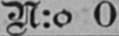N:o 0.
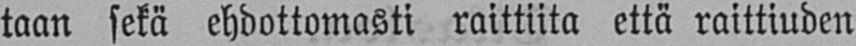taan sekä ehdottomasti raittiita että raittiuden
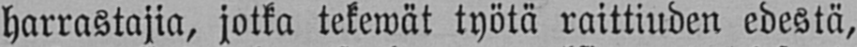harrastajia, jotka tekewät työtä raittiuden edestä,
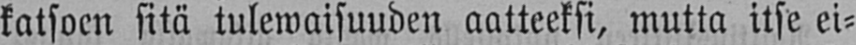katsoen sitä tulewaisuuden aatteeksi, mutta itse ei-
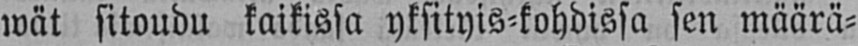wät sitoudu kaikissa yksityis-kohdissa sen määrä-
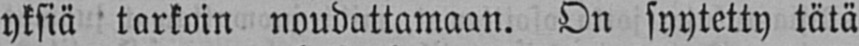yksiä tarkoin noudattamaan. On syytetty tätä
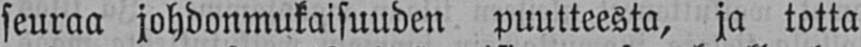seuraa johdonmukaisuuden puutteesta, ja totta
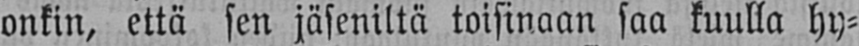onkin, että sen jäseniltä toisinaan saa kuulla hy-
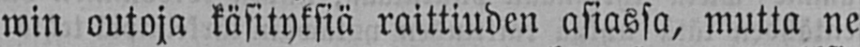win outoja käsityksiä raittiuden asiassa, mutta ne
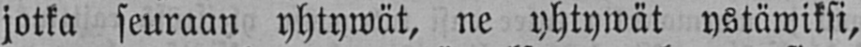jotka seuraan yhtywät, ne yhtywät ystäwiksi,
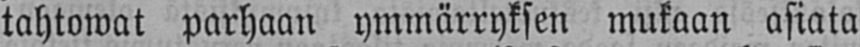tahtowat parhaan ymmärryksen mukaan asiata
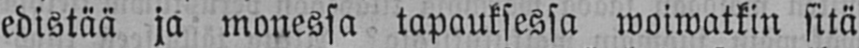edistää ja monessa tapauksessa woiwatkin sitä
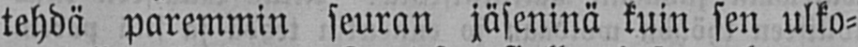tehdä paremmin seuran jäseninä kuin sen ulko-
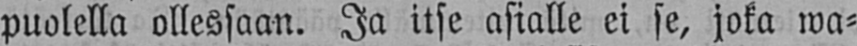puolella ollessaan. Ja itse asialle ei se, joka wa-
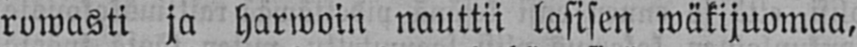rowasti ja Harwoin nauttii lasisen wäkijuomaa,
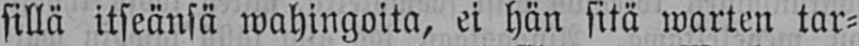sillä itseänsä wahingoita, ei hän sitä warten tar-
